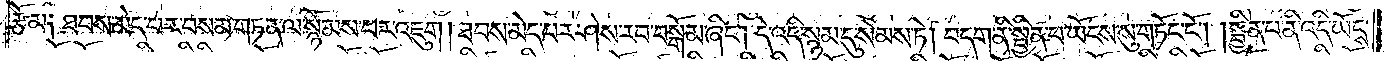རྩོམ། ཐབས་མེད་པར་བསམ་གཏན་ལ་སྙོམས་པར་འཇུག །ཐབས་མེད་པར་ཤེས་རབ་བསྒོམ་ཞིང༌། དེ་འདི་སྙམ་དུ་སེམས་ཏེ། བདག་ནི་སྦྱིན་པ་ཡོངས་སུ་གཏོང་ངོ༌། །སྦྱིན་པ་ནི་འདི་ཡོངས་
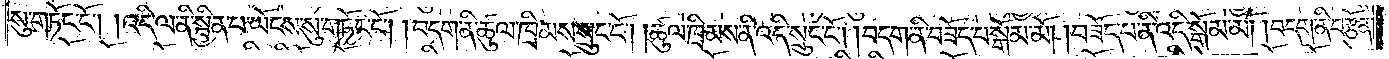སུ་གཏོང་ངོ༌། །འདི་ལ་ནི་སྦྱིན་པ་ཡོངས་སུ་གཏོང་ངོ༌། །བདག་ནི་ཚུལ་ཁྲིམས་སྲུང་ངོ༌། །ཚུལ་ཁྲིམས་ནི་འདི་སྲུང་ངོ༌། །བདག་ནི་བཟོད་པ་སྒོམ་མོ། །བཟོད་པ་ནི་འདི་སྒོམ་མོ། བདག་ནི་བརྩོན་
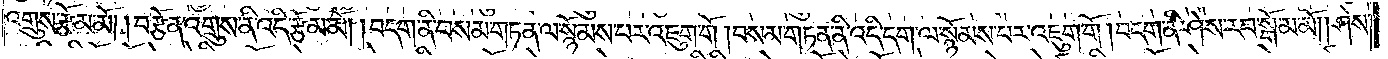འགྲུས་རྩོམ་མོ། །བརྩོན་འགྲུས་ནི་འདི་རྩོམ་མོ། །བདག་ནི་བསམ་གཏན་ལ་སྙོམས་པར་འཇུག་གོ །བསམ་གཏན་ནི་འདི་དག་ལ་སྙོམས་པར་འཇུག་གོ །བདག་ནི་ཤེས་རབ་སྒོམ་མོ། །ཤེས་
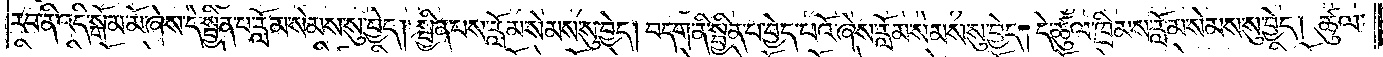རབ་ནི་འདི་སྒོམ་མོ་ཞེས་དེ་སྦྱིན་པ་རློམ་སེམས་སུ་བྱེད། སྦྱིན་པས་རློམ་སེམས་སུ་བྱེད། བདག་ནི་སྦྱིན་པ་བྱེད་པའོ་ཞེས་རློམ་སེམས་སུ་བྱེད། དེ་ཚུལ་ཁྲིམས་རློམ་སེམས་སུ་བྱེད། ཚུལ་
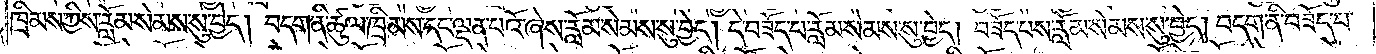ཁྲིམས་ཀྱིས་རློམ་སེམས་སུ་བྱེད། བདག་ནི་ཚུལ་ཁྲིམས་དང་ལྡན་པའོ་ཞེས་རློམ་སེམས་སུ་བྱེད། དེ་བཟོད་པ་རློམ་སེམས་སུ་བྱེད། བཟོད་པས་རློམ་སེམས་སུ་བྱེད། བདག་ནི་བཟོད་པ་
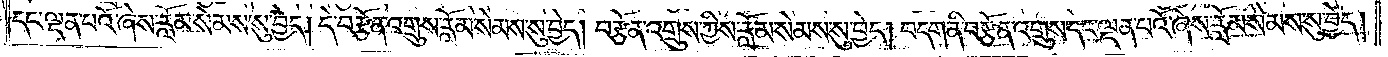དང་ལྡན་པའོ་ཞེས་རློམ་སེམས་སུ་བྱེད། དེ་བརྩོན་འགྲུས་རློམ་སེམས་སུ་བྱེད། བརྩོན་འགྲུས་ཀྱིས་རློམ་སེམས་སུ་བྱེད། བདག་ནི་བརྩོན་འགྲུས་དང་ལྡན་པའོ་ཞེས་རློམ་སེམས་སུ་བྱེད།
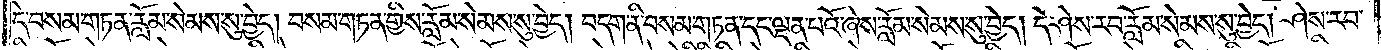དེ་བསམ་གཏན་རློམ་སེམས་སུ་བྱེད། བསམ་གཏན་གྱིས་རློམ་སེམས་སུ་བྱེད། བདག་ནི་བསམ་གཏན་དང་ལྡན་པའོ་ཞེས་རློམ་སེམས་སུ་བྱེད། དེ་ཤེས་རབ་རློམ་སེམས་སུ་བྱེད། ཤེས་རབ་
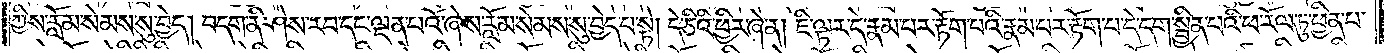ཀྱིས་རློམ་སེམས་སུ་བྱེད། བདག་ནི་ཤེས་རབ་དང་ལྡན་པའོ་ཞེས་རློམ་སེམས་སུ་བྱེད་པ་སྟེ། དེ་ཅིའི་ཕྱིར་ཞེ་ན། ཇི་ལྟར་དེ་རྣམ་པར་རྟོག་པའི་རྣམ་པར་རྟོག་པ་དེ་དག་སྟོན་པའི་ཕ་རོལ་ཏུ་ཕྱིན་པ་
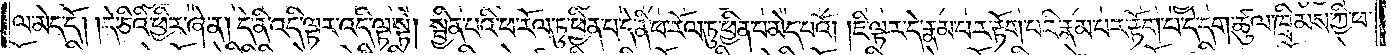ལ་མེད་དོ། །དེ་ཅིའི་ཕྱིར་ཞེ་ན། དེ་ནི་འདི་ལྟར་འདི་ལྟ་སྟེ། སྦྱིན་པའི་ཕ་རོལ་ཏུ་ཕྱིན་པ་དེ་ནི་ཕ་རོལ་ཏུ་ཕྱིན་པ་མེད་པའོ། །ཇི་ལྟར་དེ་རྣམ་པར་རྟོག་པའི་རྣམ་པར་རྟོག་པ་དེ་དག་ཚུལ་ཁྲིམས་ཀྱི་ཕ་
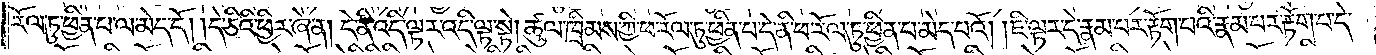རོལ་ཏུ་ཕྱིན་པ་ལ་མེད་དོ། །དེ་ཅིའི་ཕྱིར་ཞེ་ན། དེ་ནི་འདི་ལྟར་འདི་ལྟ་སྟེ། ཚུལ་ཁྲིམས་ཀྱི་ཕ་རོལ་ཏུ་ཕྱིན་པ་དེ་ནི་ཕ་རོལ་ཏུ་ཕྱིན་པ་མེད་པའོ། །ཇི་ལྟར་དེ་རྣམ་པར་རྟོག་པའི་རྣམ་པར་རྟོག་པ་དེ་
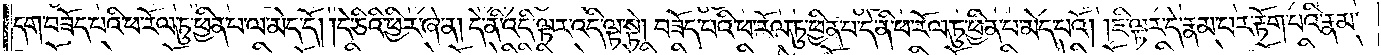དག་བཟོད་པའི་ཕ་རོལ་ཏུ་ཕྱིན་པ་ལ་མེད་དོ། །དེ་ཅིའི་ཕྱིར་ཞེ་ན། དེ་ནི་འདི་ལྟར་འདི་ལྟ་སྟེ། བཟོད་པའི་ཕ་རོལ་ཏུ་ཕྱིན་པ་དེ་ནི་ཕ་རོལ་ཏུ་ཕྱིན་པ་མེད་པའོ། །ཇི་ལྟར་དེ་རྣམ་པར་རྟོག་པའི་རྣམ་
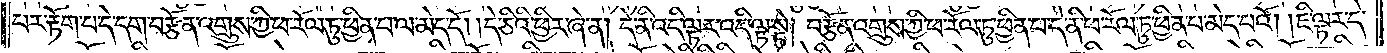པར་རྟོག་པ་དེ་དག་བརྩོན་འགྲུས་ཀྱི་ཕ་རོལ་ཏུ་ཕྱིན་པ་ལ་མེད་དོ། །དེ་ཅིའི་ཕྱིར་ཞེ་ན། དེ་ནི་འདི་ལྟར་འདི་ལྟ་སྟེ། བརྩོན་འགྲུས་ཀྱི་ཕ་རོལ་ཏུ་ཕྱིན་པ་དེ་ནི་ཕ་རོལ་ཏུ་ཕྱིན་པ་མེད་པའོ། །ཇི་ལྟར་དེ་
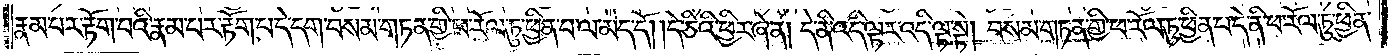རྣམ་པར་རྟོག་པའི་རྣམ་པར་རྟོག་པ་དེ་དག་བསམ་གཏན་གྱི་ཕ་རོལ་ཏུ་ཕྱིན་པ་ལ་མེད་དོ། །དེ་ཅིའི་ཕྱིར་ཞེ་ན། དེ་ནི་འདི་ལྟར་འདི་ལྟ་སྟེ། བསམ་གཏན་གྱི་ཕ་རོལ་ཏུ་ཕྱིན་པ་ལ་དེ་ནི་ཕ་རོལ་ཏུ་ཕྱིན་
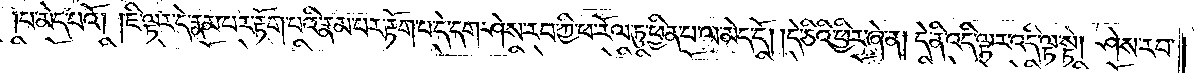པ་མེད་པའོ། །ཇི་ལྟར་དེ་རྣམ་པར་རྟོག་པའི་རྣམ་པར་རྟོག་པ་དེ་དག་ཤེས་རབ་ཀྱི་ཕ་རོལ་ཏུ་ཕྱིན་པ་ལ་མེད་དོ། དེ་ཅིའི་ཕྱིར་ཞེ་ན། དེ་ནི་འདི་ལྟར་འདི་ལྟ་སྟེ། ཤེས་རབ་
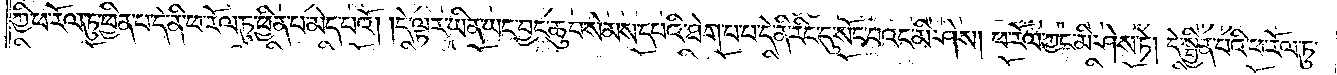ཀྱི་ཕ་རོལ་ཏུ་ཕྱིན་པ་དེ་ནི་ཕ་རོལ་ཏུ་ཕྱིན་པ་མེད་པའོ། །དེ་ལྟར་ཡིན་ཡང་བྱང་ཆུབ་སེམས་དཔའི་ཐེག་པ་པ་དེ་ནི་རིང་དུ་སོང་བའང་མི་ཤེས། ཕ་རོལ་ཀྱང་མི་ཤེས་ཏེ། དེ་སྦྱིན་པའི་ཕ་རོལ་ཏུ་
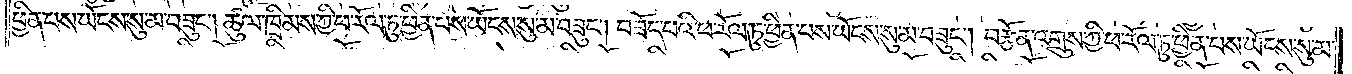ཕྱིན་པས་ཡོངས་སུ་མ་བཟུང༌། ཚུལ་ཁྲིམས་ཀྱི་ཕ་རོལ་ཏུ་ཕྱིན་པས་ཡོངས་སུ་མ་བཟུང༌། བཟོད་པའི་ཕ་རོལ་ཏུ་ཕྱིན་པས་ཡོངས་སུ་མ་བཟུང༌། བརྩོན་འགྲུས་ཀྱི་ཕ་རོལ་ཏུ་ཕྱིན་པས་ཡོངས་སུ་མ་
